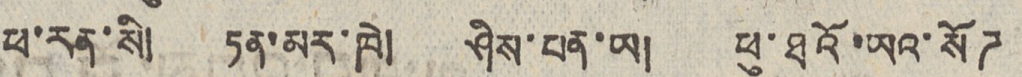ཕ་རན་སི། ཏན་མར་ཁེ། ཤིས་པན་ཡ། ཕུ་ཐའོ་ཡའ་སོཊ
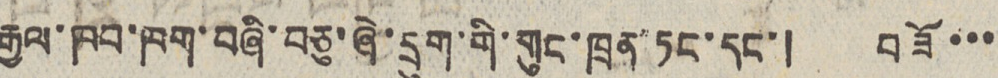རྒྱལ་ཁབ་ཁག་བཞི་བཅུ་ཞེ་དྲུག་གི་གུང་ཁྲན་ཏང་དང་། བཟོ་་་
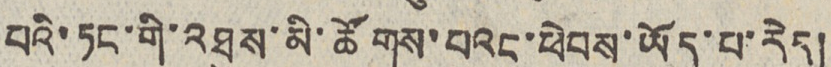པའི་ཏང་གི་འཐུས་མི་ཚོགས་བའང་ཕེབས་ཡོད་པ་རེད།
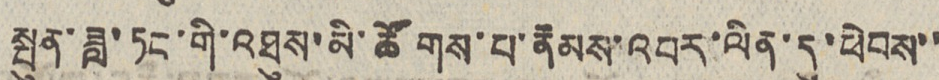སྤུན་ཟླ་ཏང་གི་འཐུས་མི་ཚོགས་པ་རྣམས་འབར་ལིན་དུ་ཕེབས་་
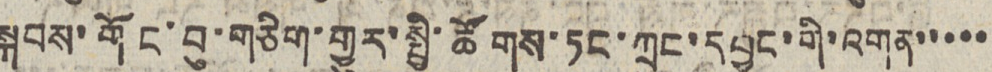སྐབས་གོང་བུ་གཅིག་གྱུར་སྤྱི་ཚོགས་ཏང་ཀྲུང་དབྱང་གི་འགན་་་་་
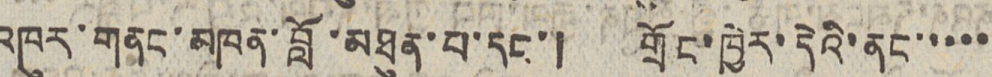འཁུར་གནང་མཁན་བློ་མཐུན་པ་དང་། གྲོང་ཁྱེར་དེའི་ནང་་་་་
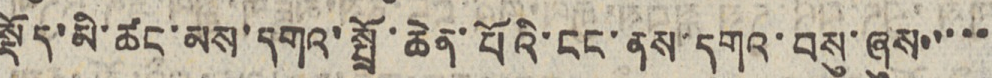སྡོད་མི་ཚང་མས་དགའ་སྤྲོ་ཆེན་པོའི་ངང་ནས་དགའ་བསུ་ཞུས་་་་་
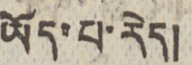ཡོད་པ་རེད།
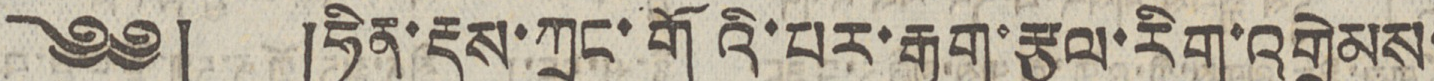༄༅། །ཧིན་རྡུས་ཀྲུང་གོའི་པར་རྒྱག་རྩལ་རིག་འགྲེམས་
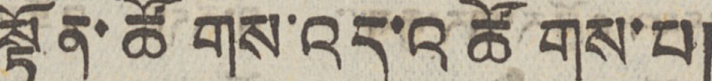སྟོན་ཚོགས་འདུ་འཚོགས་པ།
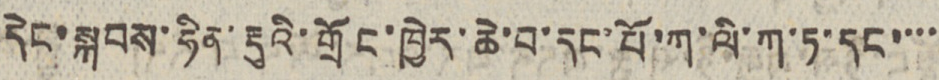དེང་སྐབས་ཧིན་རྡུའི་གྲོང་ཁྱེར་ཆེ་བ་དང་པོ་ཀ་ལི་ཀ་ཏ་དང་་་་
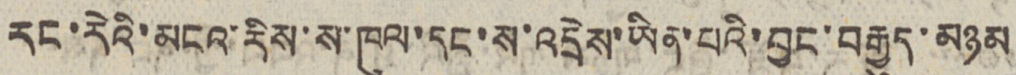རང་རེའི་མངའ་རིས་ས་ཁུལ་དང་ས་འདྲེས་ཡིན་པའི་བྱང་བརྒྱུད་མཉམ
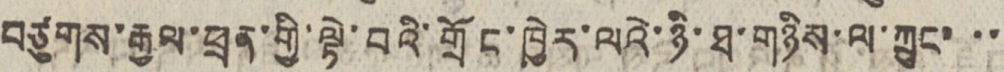བཙུགས་རྒྱལ་ཕྲན་གྱི་ལྟེ་བའི་གྲོང་ཁྱེར་ལའེ་ཉི་ཐ་གཉིས་ལ་ཀྲུང་་་
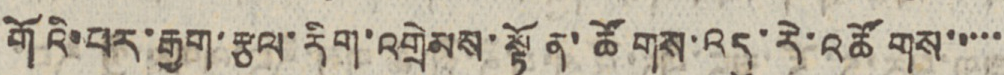གོའི་པར་རྒྱག་རྩལ་རིག་འགྲེམས་སྟོན་ཚོགས་འདུ་རེ་འཚོགས་་་་་
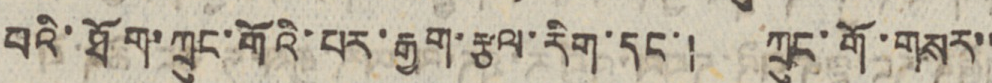པའི་ཐོག་ཀྲུང་གོའི་པར་རྒྱག་རྩལ་རིག་དང་། ཀྲུང་གོ་གསར་་
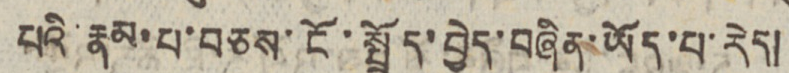པའི་རྣམ་པ་བཅས་ངོ་སྤྲོད་བྱེད་བཞིན་ཡོད་པ་རེད།
